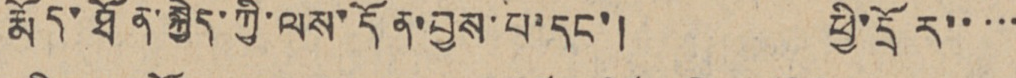རྨོད་ཐོན་སྐྱེད་ཀྱི་ལས་དོན་བྱ་པ་དང་། ཕྱི་དྲོར་་་་་
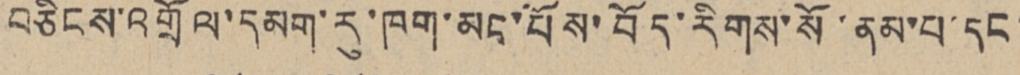བཅིངས་འགྲོལ་དམག་རུ་ཁག་མང་པོས་བོད་རིགས་སོ་ནམ་པ་དང་
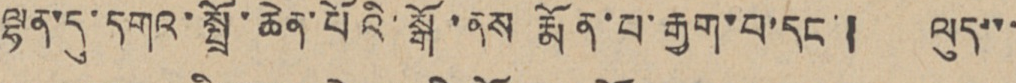ལྷན་དུ་དགའ་སྤྲོ་ཆེན་པོའི་སྒོ་ནས རྨོན་པ་རྒྱག་པ་དང་། ལུད་་་
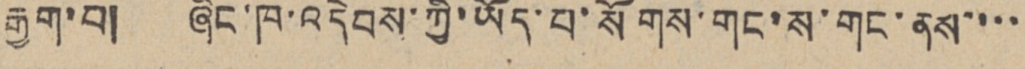རྒྱག་བ། ཞིང་ཁ་འདེབས་ཀྱི་ཡོད་པ་སོགས་གང་ས་གང་ནས་་་་
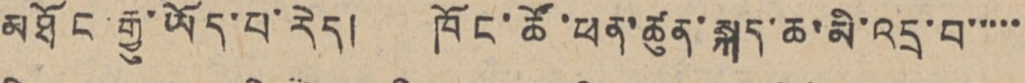མཐོང་རྒྱུ་ཡོད་པ་རེད། ཁོང་ཚོ་ཕན་ཚུན་སྐད་ཆ་མི་འདྲ་བ་་་་་
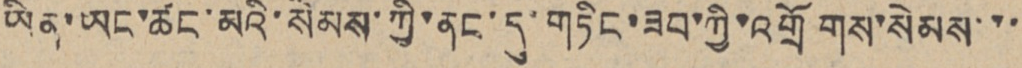ཡིན་ཡང་ཚང་མའི་སེམས་ཀྱི་ནང་དུ་གཏིང་ཟབ་ཀྱི་འགྲོགས་སེམས་་་
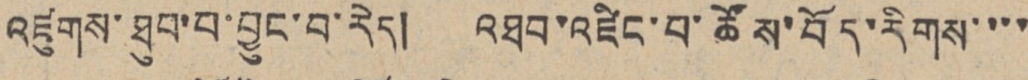འཛུགས་ཐུབ་པ་བྱུང་བ་རེད། འཐབ་འཛིངས་པ་ཚོས་བོད་རིགས་་་་
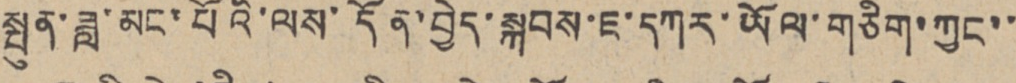སྤུན་ཟླ་མང་པོའི་ལས་དོན་བྱེད་སྐབས་ཇ་དཀར་ཡོལ་གཅིག་ཀྱང་་
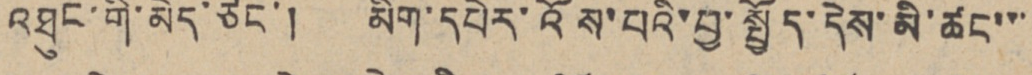འཐུང་གི་མེད་ཅིང་། མིག་དཔེར་འོས་པའི་བྱ་སྤྱོད་དེས་མི་ཚང་་་
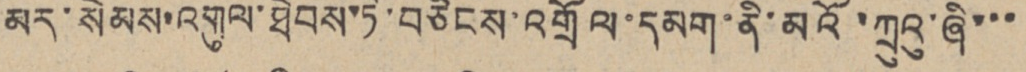མར་སེམས་འགུལ་ཐེབས་ཏེ་བཅིངས་འགྲོལ་དམག་ནི་མའོ་ཀྲུའུ་ཞི་་་
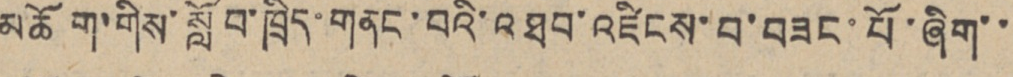མཆོག་གིས་སློབ་ཁྲིད་གནང་བའི་འཐབ་འཛིངས་བ་བཟང་པོ་ཞིག་་
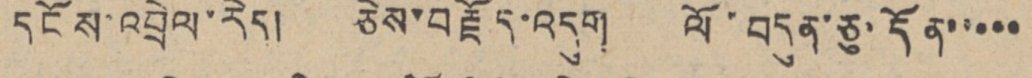དངོས་འབྲེལ་རེད། ཅེས་བརྗོད་འདུག ལོ་བདུན་ཅུ་དོན་་་་་
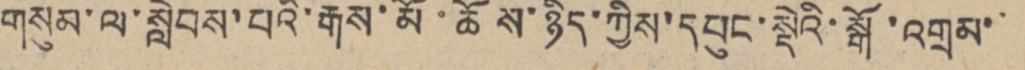གསུམ་ལ་སླེབས་པའི་རྒས་མོ་ཆོས་ཉིད་ཀྱིས་དཔུང་སྡེའི་སྒོ་འགྲམ་
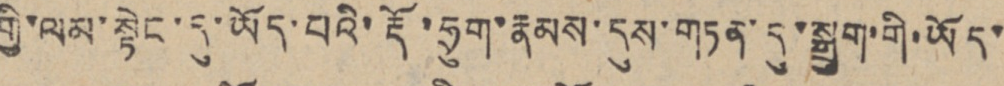གྱི་ལམ་སྟེང་དུ་ཡོད་པའི་རྡོ་ཧྲུག་རྣམས་དུས་གཏན་དུ་སྒྲུག་གི་ཡོད་
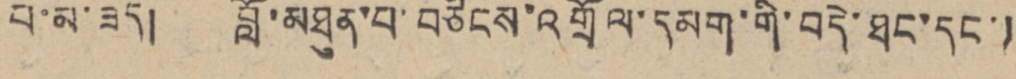པ་མ་ཟད། བློ་མཐུན་པ་བཅིངས་འགྲོལ་དམག་གི་བདེ་ཐང་དང་།
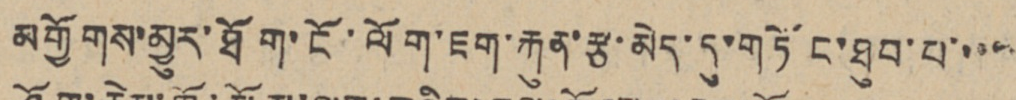མགྱོགས་མྱུར་ཐོག་ངོ་ལོག་ཇག་རྐུན་རྩ་མེད་དུ་གཏོང་ཐུབ་པ་་་་་
